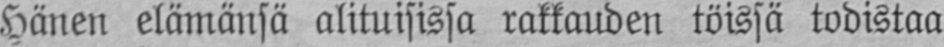Hänen elämänsä alituisissa rakkauden töissä todistaa
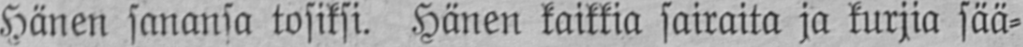Hänen sanansa tosiksi. Hänen kaikkia sairaita ja kurjia sää-
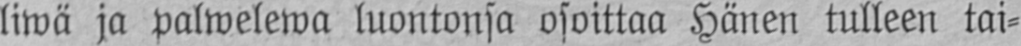liwä ja palwelewa luontonsa osoittaa Hänen tulleen tai-
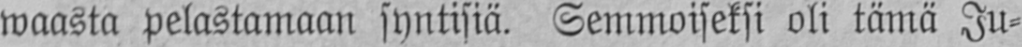waasta pelastamaan syntisiä. Semmoiseksi oli tämä Ju-
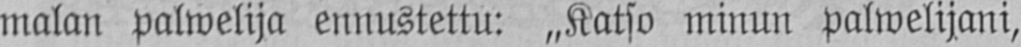malan palwelija ennustettu: „Katso minun palwelijani,
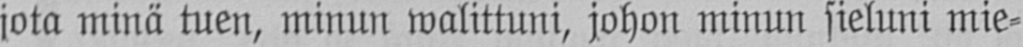jota minä tuen, minun walittuni, johon minun sieluni mie-
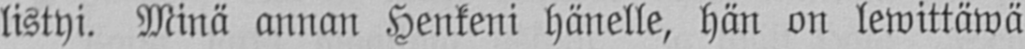listyi. Minä annan Henkeni hänelle, hän on lewittäwä
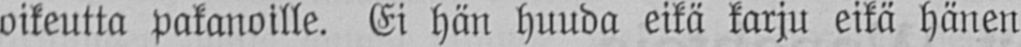oikeutta pakanoille. Ei hän huuda eikä karju eikä hänen
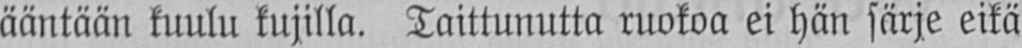ääntään kuulu kujilla. Taittunutta ruokoa ei hän särje eikä
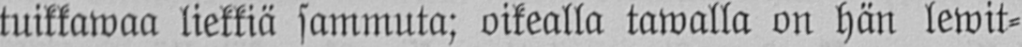tuikkawaa liekkiä sammuta; oikealla tawalla on hän lewit-
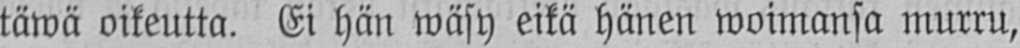täwä oikeutta. Ei hän wäsy eikä hänen woimansa murru,
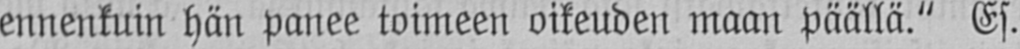ennenkuin hän panee toimeen oikeuden maan päällä." Es.
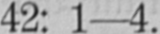42: 1—4.
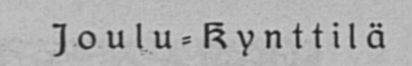Joulu-Kynttilä
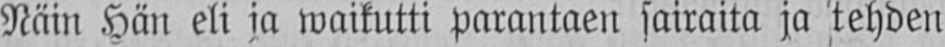Näin Hän eli ja waikutti parantaen sairaita ja tehden
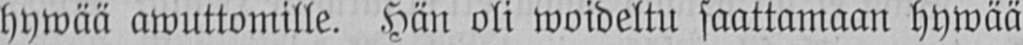hywää awuttomille. Hän oli woideltu saattamaan hywää
